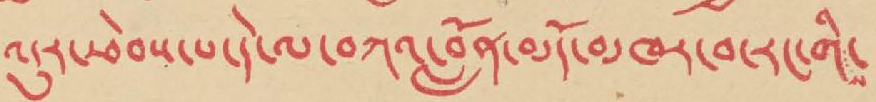འདུར་ཕེབས་པ་དེ་ལ་བཀའ་བློན་མདོ་མཁར་བ་རང་གི་
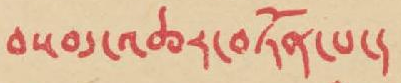བསམ་འཆར་བཏོན་པ་།
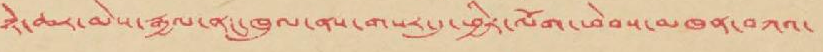ཉེ་ཆར་མེས་རྒྱལ་ནང་ཁུལ་ནས་གསར་དུ་ཕྱིར་ལོག་ཕེབས་མཁན་བཀའ་
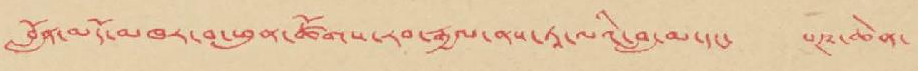བློན་མདོ་མཁར་བ་ཕུན་ཚོགས་རབ་རྒྱལ་ནས་ཏཱ་ལའི་བླ་མ་དང་ པཎ་ཆེན་
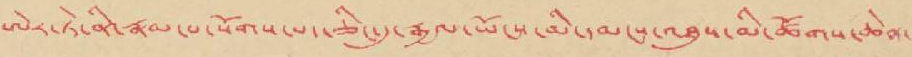ཨེར་ཏེ་ནི་རྣམ་པ་སོགས་པད་ཅིང་དུ་རྒྱ་ཡོངས་མི་དམངས་འཐུས་མི་ཚོགས་ཆེན་
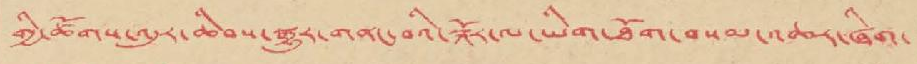གྱི་ཚོགས་འདུར་ཆིབས་སྒྱུར་གནང་བའི་སྐོར་ལ་ཡིག་ཐོག་བསམ་འཆར་ཞིག་
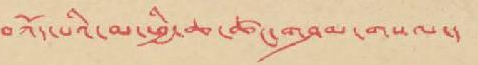བཀོད་པའི་མ་ཕྱི་ཆ་ཚང་གཤམ་གསལ་།
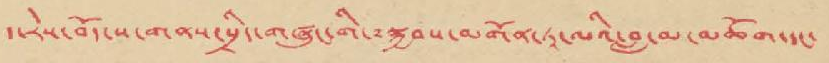ད་རེས་བོད་ས་གནས་སྲིད་གཞུང་གི་༸སྐྱབས་མགོན་ཏཱ་ལའི་བླ་མ་མཆོག་དང་
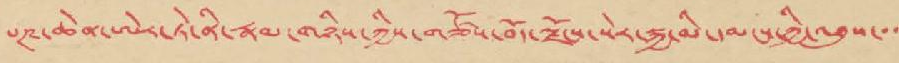པཎ་ཆེན་ཨེར་ཏེ་ནི་རྣམ་གཉིས་ཀྱིས་གཙོས་བོད་ལྗོངས་སེར་སྐྱ་མི་དམངས་ཀྱི་འཐུས་་་
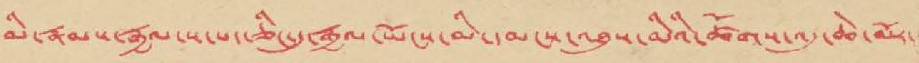མི་རྣམས་རྒྱལ་ས་པད་ཅིང་དུ་རྒྱལ་ཡོངས་མི་དམངས་འཐུས་མིའི་ཚོགས་འདུ་ཆེ་མོར་
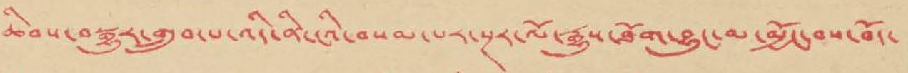ཆིབས་བསྒྱུར་གྲུབ་པ་འདི་ནི་ངའི་བསམ་པར་སྔར་ལོ་རྒྱུས་ཐོག་བྱུང་མ་མྱོང་བས་བོད་
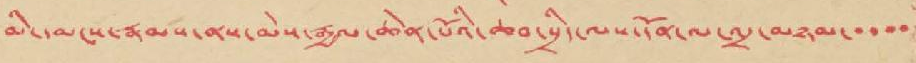མི་དམངས་རྣམས་ནས་མེས་རྒྱལ་ཆེན་པོའི་ཆབ་སྲིད་ལས་དོན་ལ་འདྲ་མཉམ་་་་་
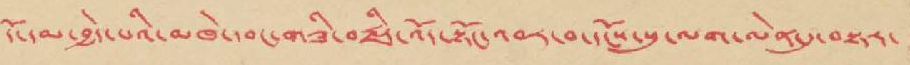དོ་དམ་བྱེད་པའི་མཁེ་དབང་གཟི་བརྗིད་སྟོང་འབར་བ་དངོས་སུ་ལག་ལེན་དུ་བསྟར་
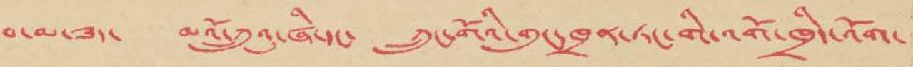བ་མ་ཟད་ མའོ་ཀྲུའུ་ཞི་དང་ ཀྲུང་གོའི་གུང་ཁྲན་ཏང་གི་འགོ་ཁྲིད་འོག་
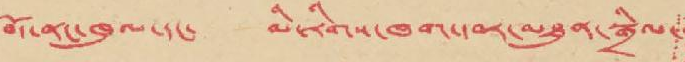བོད་ནང་ཁུལ་དང་ མི་རིགས་ཁག་དབར་མཐུན་སྒྲིལ་
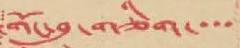གོང་བུ་གཅིག་་་་
